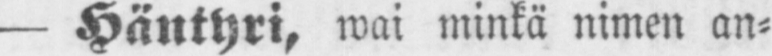— Häntyri, wai minkä nimen an-
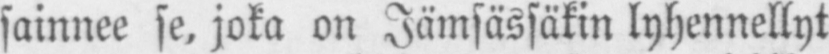sainnee se, joka on Jämsässäkin lyhennellyt
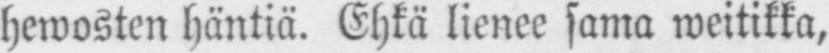hewosten häntiä. Ehkä lienee sama weitikka,
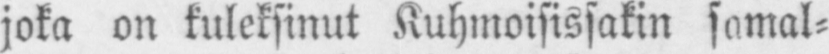joka on kuleksinut Kuhmoisissakin samal-
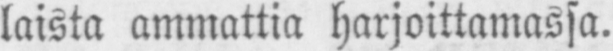laista ammattia harjoittamassa.
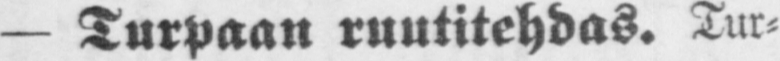— Turpaan ruutitehdas. Tur-
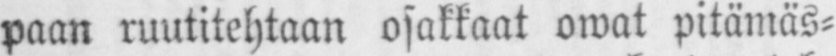paan ruutitehtaan osakkaat owat pitämäs-
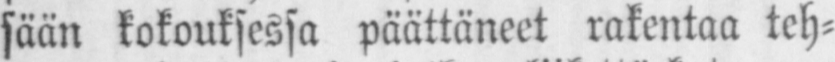sään kokouksessa päättäneet rakentaa teh-
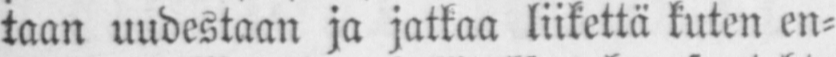taan uudestaan ja jatkaa liikettä kuten en-
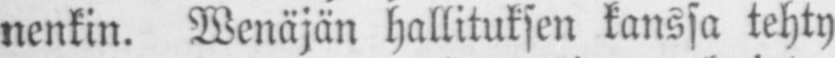nenkin. Wenäjän hallituksen kanssa tehty
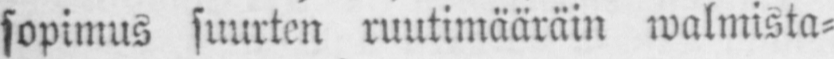sopimus suurten ruutimääräin walmista-
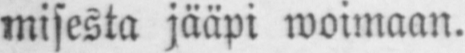misesta jääpi woimaan.
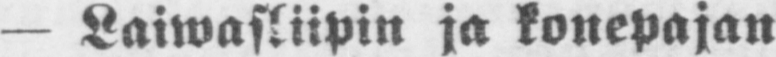— Laiwasliipin ja konepajan
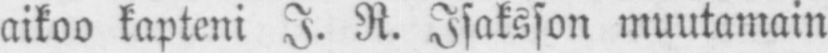aikoo kapteni J. R. Isaksson muutamain
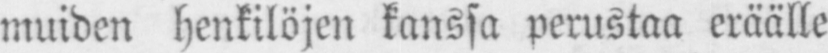muiden henkilöjen kanssa perustaa eräälle
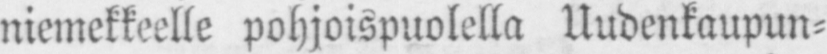niemekkeelle pohjoispuolella Uudenkaupun-
